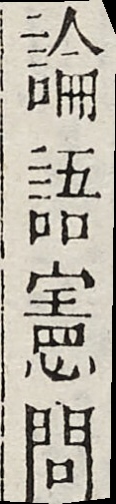論語憲問
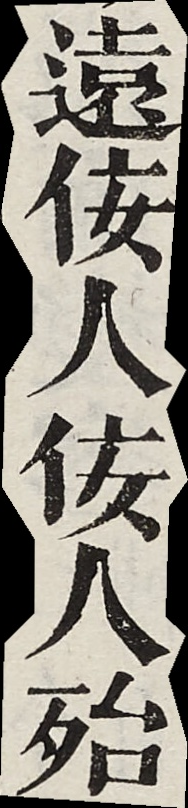遠佞人佞人殆
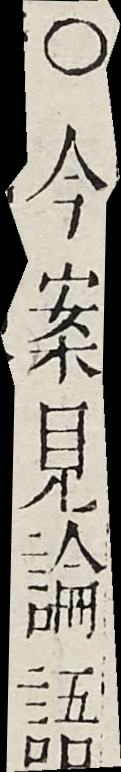○今案見論語
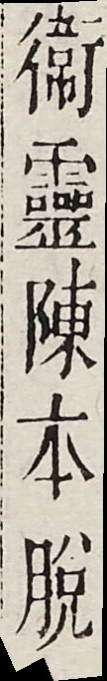衞靈陳本脫
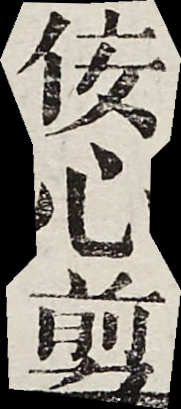佞心剪
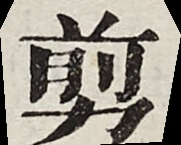剪
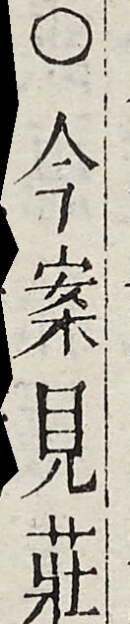○今案見莊
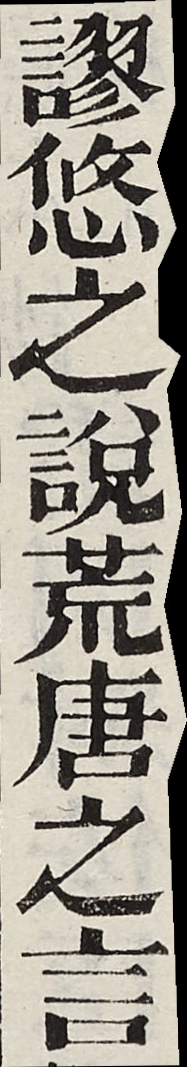謬悠之說荒唐之言
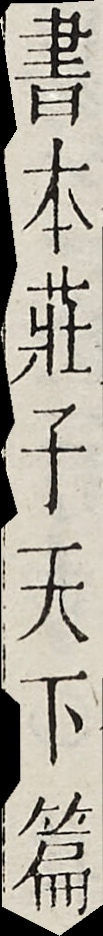書本莊子天下篇
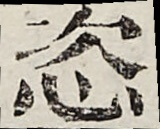恣
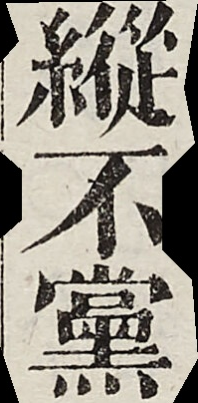縱不黨
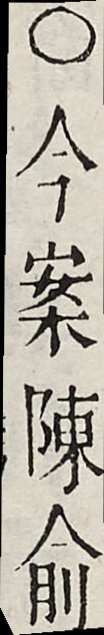○今案陳俞
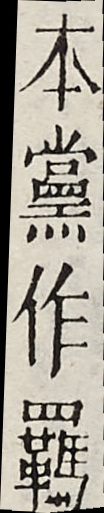本黨作羈
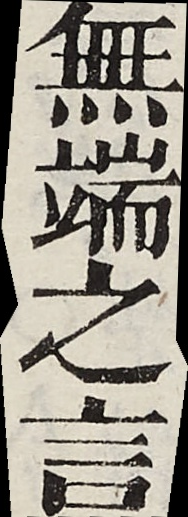無端之言
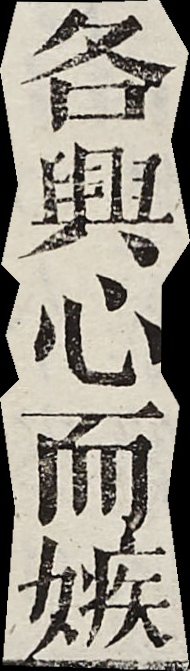各興心而嫉
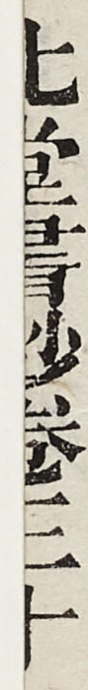北堂書鈔卷三十
